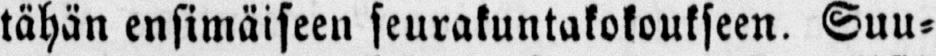tähän ensimäiseen seurakuntakokoukseen. Suu-
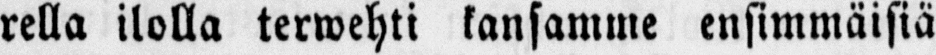rella ilolla terwehti kansamme ensimmäisiä
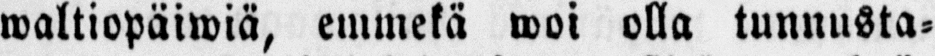waltiopäiwiä, emmekä woi olla tunnusta-
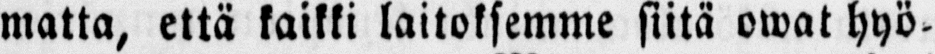matta, että kaikki laitoksemme siitä owat hyö-
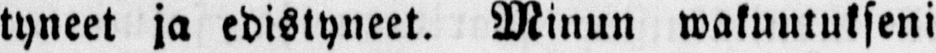tyneet ja edistyneet. Minun wakuutukseni
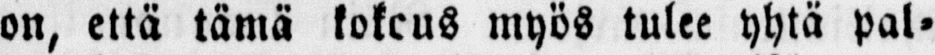on, että tämä kokous myös tulee yhtä pal-
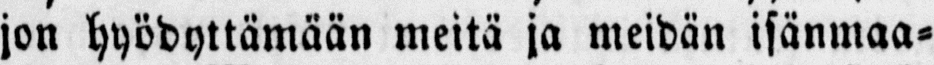jon hyödyttämään meitä ja meidän isänmaa-
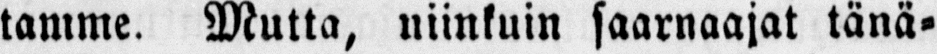tamme. Mutta, niinkuin saarnaajat tänä-
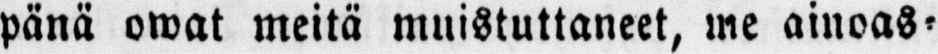pänä owat meitä muistuttaneet, me ainoas-
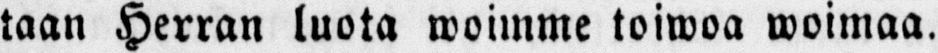taan Herran luota woimme toiwoa woimaa.
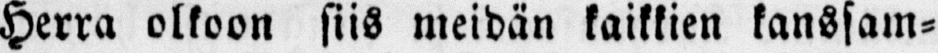Herra olkoon siis meidän kaikkien kanssam-
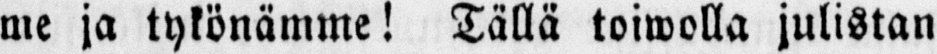me ja tykönämme! Tällä toiwolla julistan
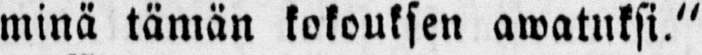minä tämän kokouksen awatuksi."
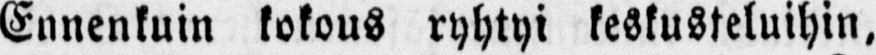Ennenkuin kokous ryhtyi keskusteluihin,
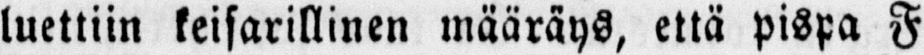luettiin keisarillinen määräys, että pispa F.
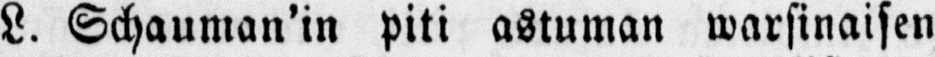L. Schauman'in piti astuman warsinaisen
